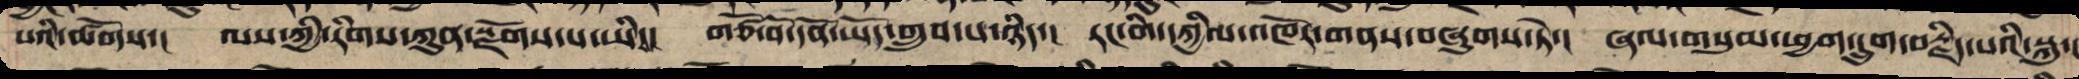པའི་ཚོགས་། ལས་ཀྱི་རིགས་ཀུན་སྫོགས་པ་ཡི་། གཙོ་བོ་དོན་ཡོད་གྲུབ་པ་ཉིད་། རང་གི་དཀྱིལ་འཁོར་གནས་བཞུགས་ཏེ་། ཞལ་གསུམ་ཕྱག་དྲུག་བརྗིད་པའི་སྐུ་།
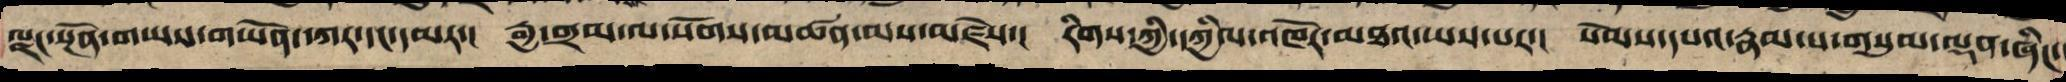ལྗང་སྔོན་གཡས་གཡོན་དཀར་དང་དམར་། རྒྱ་གྲམ་ལ་སོགས་མཚན་མས་མཛེས་། རིགས་ཀྱི་དཀྱིལ་འཁོར་མཐའ་ཡས་པར་། སེམས་དཔའ་རྣམ་པ་གསུམ་ལྡན་ཞིང་
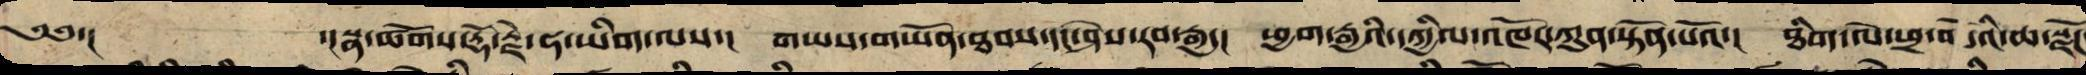༄༅་། ་།སྣ་ཚོགས་རྡོ་རྗེ་ཧ་ཡིག་ལས་། གཡས་གཡོན་ཐབས་དང་ཤེས་རབ་རྒྱ་། ཕྱག་རྒྱའི་དཀྱིལ་འཁོར་ཀུན་སྟོན་པའོ་། ཐིག་ལེ་ཕྲ་མོའི་ཆ་སྫོཌ
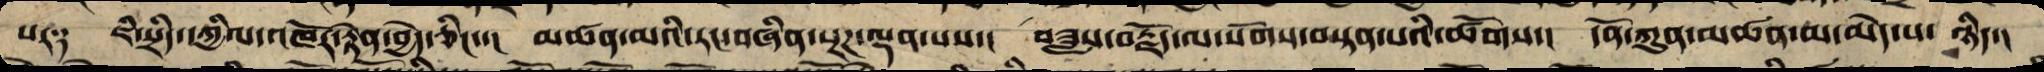པས༑ ཇི་སྲིད་དཀྱིལ་འཁོར་རྟེན་བྱེད་ཅིང་་། མཚན་མའི་རང་བཞིན་སྔཌ་ལྡན་པས་། བཟླས་བརྗོད་ལ་སོགས་བསྟན་པའི་ཚོགས་། དོན་ཀུན་མཚན་མ་མེད་པ་ཉིད་།
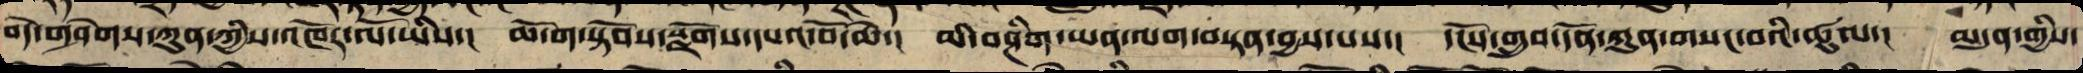བདེ་གཤེགས་ཀུན་གྱིས་འཁོར་ལོ་ཡི་། ཆོ་ག་སྟོབས་སྫོགས་དཔའ་བོ་ཆེ་། མི་བཤིག་ཡན་ལག་བསྟན་བྱས་པས་། དངོས་གྲུབ་དོན་ཀུན་གསང་བའི་ཚུལ་། མདུན་གྱི་
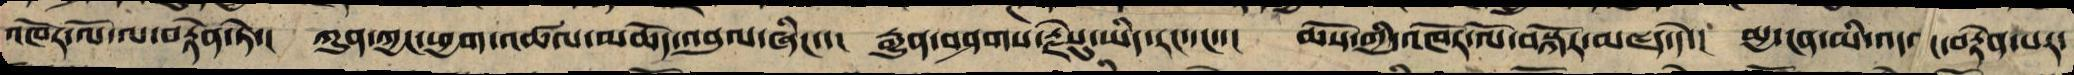འཁོར་ལོ་ལ་བརྟེན་ཏེ་། ཀུན་ཀྱང་ཕྱག་འཚལ་མཆོད་འབུལ་ཞིང་་། རྒྱུན་བཤགས་རྗེསུ་ཡི་རང་དང་་། ཆོས་ཀྱི་འཁོར་ལོ་བསྐོར་མཛད་དེ་། མྱ་ངན་མི་འདའ་བརྟེན་པར་
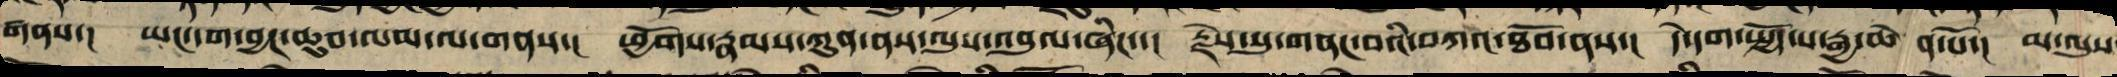གནས་། ཡང་དག་བྱང་ཆུབ་ལམ་ལ་གནས་། ཕྱོགས་རྣམས་ཀུན་ནས་ལུས་འབུལ་ཞིང་་། རྗེས་སུ་གནང་བའི་བཀའ་ཐོབ་ནས་། དེ་དག་སྤྱོད་པ་རྒྱ་ཆེན་པོ་། མ་ལུས
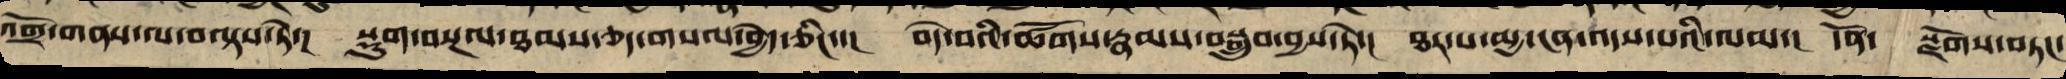འགྲོ་གནས་ལ་བལྟས་ཏེ་། སྡུག་བསྔལ་ཐམས་ཅད་བསལ་བྱེད་ཅིང་་། བདེ་བའི་ཚོགས་རྣམས་བསྒྲུབས་བྱས་ཏེ་། ཐར་པ་མྱ་ངན་འདས་པའི་ལམ་། དོན་སྫོགས་བཏང་
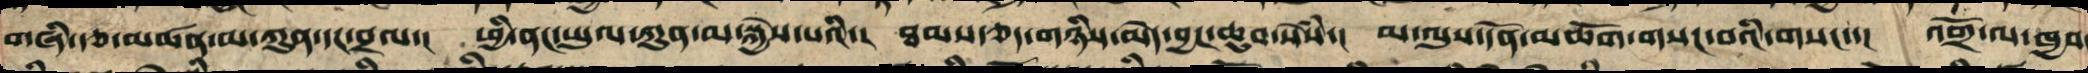གཞི་རྩ་མཚན་མ་ཀུན་དང་བྲལ་། ཕྱི་ནང་ཡུལ་ཀུན་མ་སྐྱེས་པའི་། ཐམས་ཅད་གཉིས་མེད་བྱང་ཆུབ་སེཾས་། མ་ལུས་དོན་མཆོག་གསང་བའི་གསང་་། འགྲོ་ལ་ཁྱབ་
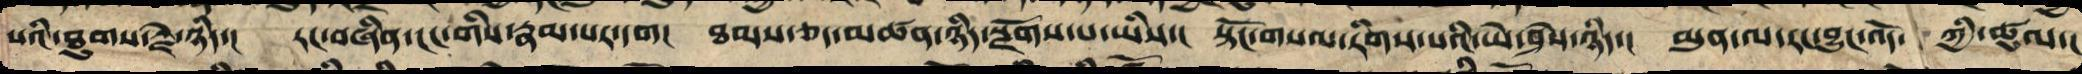པའི་ཐུགས་རྗེ་ཉིད་། རང་བཞིན་ངང་གིས་རྣམ་པར་དག། ཐམས་ཅད་མཚན་ཉིད་སྫོགས་པ་ཡིས་། སྟོང་གསལ་རིག་པའི་ཡེ་ཤེས་ཉིད་། མུན་ལ་རང་བྱུང་འོད་ཀྱི་ཚུལ་།
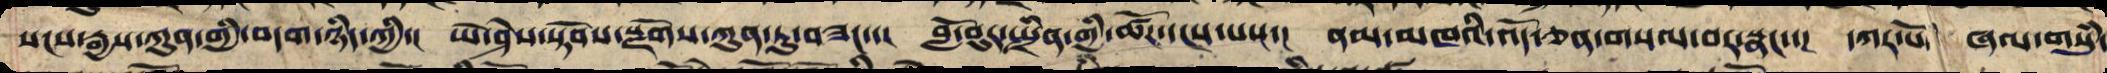སངས་རྒྱས་ཀུན་གྱི་བདག་ཉིད་ཀྱི་། ཡེ་ཤེས་སྟོབས་སྫོགས་ཀུན་ཏུ་བཟང་་། གློ་བུར་སྤྲིན་གྱི་ཚོགས་དངས་པས་། ནམ་མཁའི་འོད་བཅས་གསལ་བར་སྣང་་། དཀར་པོ་ཞལ་གསུཾ་
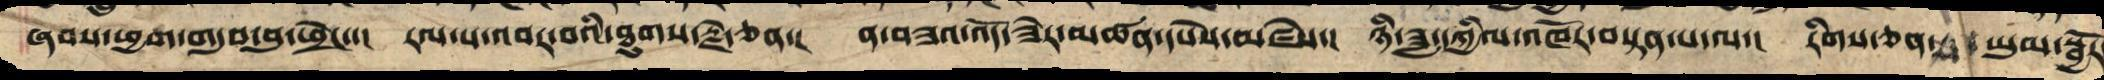ཕྱག་ཞབས་གདུབ་བུ་ཕྲེང་་། རལ་པ་འབར་བའི་ཐུགས་རྗེ་ཅན་། ན་བཟའ་འོད་ཟེར་མཚན་དཔེས་མཛེས་། ཉི་ཟླའི་དཀྱིལ་འཁོར་བརྟན་པ་ལ་། རིགས་ཅན་ཡུམ་སྦྱོར
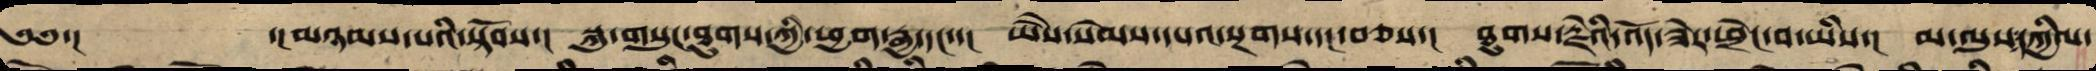༄༅་། ་།མཉམ་པའི་སྟོབས་། སྐུ་གསུང་ཐུགས་ཀྱི་ཕྱག་རྒྱ་དང་་། ཡཻས་སེམས་དཔའ་སྔགས་དང་བཅས་། ཐུགས་རྗེའི་འོད་ཟེར་ཕྲེང་བ་ཡིས་། མ་ལུས་དཀྱིལ་
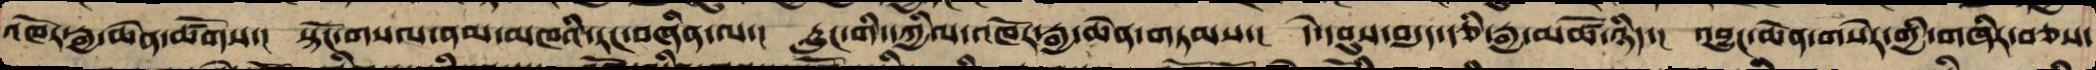འཁོར་རྒྱ་ཆེན་ཚོགས་། སྟོང་གསལ་ནམ་མཁའི་རང་བཞིན་ལ་། རླུང་གི་དཀྱིལ་འཁོར་རྒྱ་ཆེན་གཏམས་། དེ་དབུས་བདུད་རྩིའི་རྒྱ་མཚོ་ཉིད་། འབྱུང་ཆེན་གསེར་གྱི་གཞིར་བཅས་
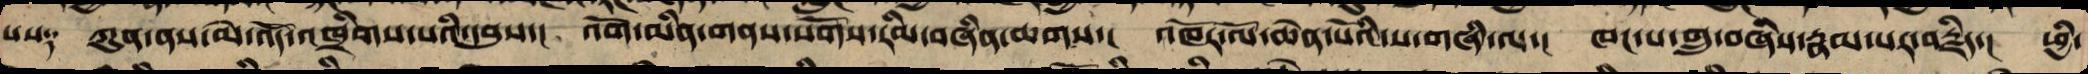པར༑ ཀུན་ནས་མེ་འོད་འཁྲིགས་པའི་དབུས་། འོག་མིན་གནས་སོགས་རིམ་བཞིན་ཆགས་། འཁོར་ལོ་ཆེན་པོའི་ས་གཞི་ལ་། ཁང་པ་གྲུ་བཞིས་རྣམ་པར་བརྗིད་། ཕྱི་
